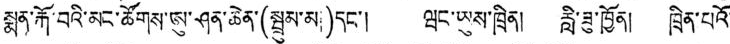སྨན་རྐོ་བའི་མང་ཚོགས་ཨུ་ཤན་ཆེན་(སྦྲུམ་མ།)དང་། ཝང་ཡུས་ཁྲིན། རླི་ཟུ་ཁྱོན། ཁྲིན་པའོ་
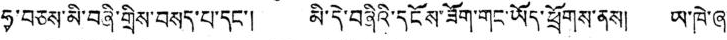ཧྭ་བཅས་མི་བཞི་གྲིས་བསད་པ་དང་། མི་དེ་བཞིའི་དངོས་ཟོག་གང་ཡོད་ཕྲོགས་ནས། ཡ་ཁེ་ཞ་
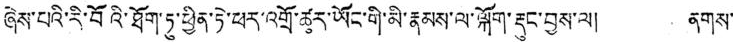ཞེས་པའི་རི་བོའི་ཐོག་ཏུ་ཕྱིན་ཏེ་ཕར་འགྲོ་ཚྭར་ཡོང་གི་མི་རྣམས་ལ་ལྐོག་རྡུང་བྱས་ལ། ནགས་
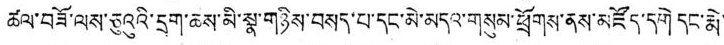ཚལ་བཟོ་ལས་ཅུའུའི་དྲག་ཆས་མི་སྣ་གཉིས་བསད་པ་དང་མེ་མདའ་གསུམ་ཕྲོགས་ནས་མཛོད་དགེ དང་རྨེ་་
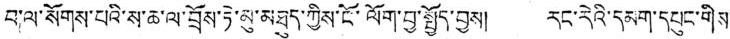བ་ལ་སོགས་པའི་ས་ཆ་ལ་བྲོས་ཏེ་མུ་མཐུད་ཀྱིས་ངོ་ལོག་བྱ་སྤྱོད་བྱས། རང་རེའི་དམག་དཔུང་གིས་
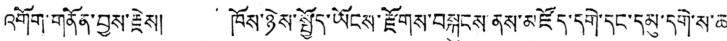འགོག་གནོན་བྱས་རྗེས། ཁོས་ཉེས་སྦྱོད་ཡོངས་རྫོགས་བསྐུངས་ནས་མཛོད་དགེ་དང་དམུ་དགེ་ས་ཆ་
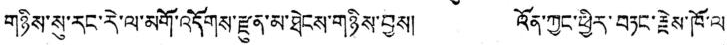གཉིས་སུ་རང་རེ་ལ་མགོ་འདོགས་རྫུན་མ་ཐེངས་གཉིས་བྱས། འོན་ཀྱང་ཕྱིར་བཏང་རྗེས་ཁོ་ལ་
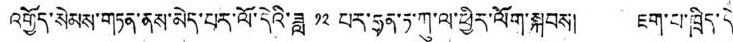འགྱོད་སེམས་གཏན་ནས་མེད་པར་ལོ་དེའི་ཟླ ༡༢ པར་ཧྲན་ཏ་ཀུ་ལ་ཕྱིར་ལོག་སྐབས། ཇག་པ་ཁྲིད་དེ་
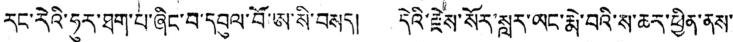རང་རེའི་ཧུར་ཐག་པ་ཞིང་བ་དབུལ་བོ་ཨ་སི་བསད། དེའི་རྗེས་སོར་སླར་ཡང་རྨེ་བའི་ས་ཆར་ཕྱིན་ནས་
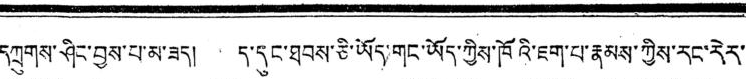དཀྲུགས་ཤིང་བྱས་པ་མ་ཟད། ད་དུང་ཐབས་ཅི་ཡོད་གང་ཡོད་ཀྱིས་ཁོའི་ཇག་པ་རྣམས་ཀྱིས་རང་རེར་
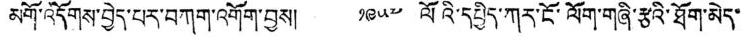མགོ་འདོགས་བྱེད་པར་བཀག་འགོག་བྱས། ༡༩༥༧ ལོའི་དཔྱིད་ཀར་ངོ་ལོག་གཞི་རྩའི་ཐོག་མེད་
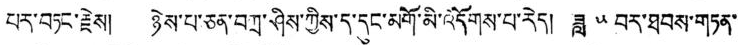པར་བཏང་རྗེས། ཉེས་པ་ཅན་བཀྲ་ཤིས་ཀྱིས་ད་དུང་མགོ་མི་འདོགས་པ་རེད། ཟླ ༥ བར་ཐབས་གཏན་
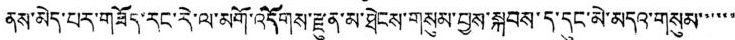ནས་མེད་པར་གཟོད་རང་རེ་ལ་མགོ་འདོགས་རྫུན་མ་ཐེངས་གསུམ་བྱས་སྐབས་ད་དུང་མེ་མདའ་གསུམ་་་་་་
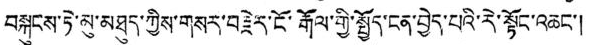བསྐུངས་ཏེ་མུ་མཐུད་ཀྱིས་གསར་བརྗེར་ངོ་རྒོལ་གྱི་སྤྱོད་ངན་བྱེད་པའི་རེ་སྟོང་འཆང་།
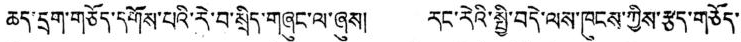ཆད་དྲག་གཅོད་དགོས་པའི་རེ་བ་སྲིད་གཞུང་ལ་ཞུས། རང་རེའི་སྤྱི་བདེ་ལས་ཁུངས་ཀྱིས་རྩད་གཅོད་
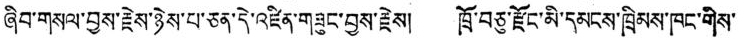ཞིབ་གསལ་བྱས་རྗེས་ཉེས་པ་ཅན་དེ་འཛིན་གཟུང་བྱས་རྗེས། ཁྲོ་བཅུ་རྫོང་མི་དམངས་ཁྲིམས་ཁང་གིས་
